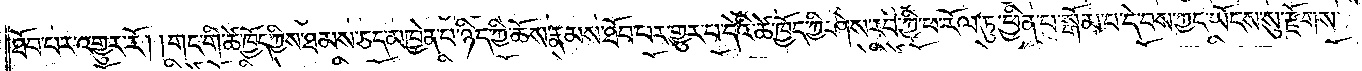ཐོབ་པར་འགྱུར་རོ། །གང་གི་ཚེ་ཁྱོད་ཀྱིས་ཐམས་ཅད་མཁྱེན་པ་ཉིད་ཀྱི་ཆོས་རྣམས་ཐོབ་པར་གྱུར་པ་དེའི་ཚེ་ཁྱོད་ཀྱི་ཤེས་རབ་ཀྱི་ཕ་རོལ་ཏུ་ཕྱིན་པ་སྒོམ་པ་དེ་བས་ཀྱང་ཡོངས་སུ་རྫོགས་
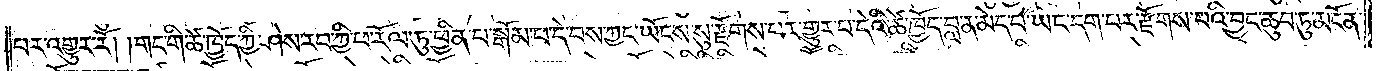པར་འགྱུར་རོ། །གང་གི་ཚེ་ཁྱོད་ཀྱི་ཤེས་རབ་ཀྱི་ཕ་རོལ་ཏུ་ཕྱིན་པ་སྒོམ་པ་དེ་བས་ཀྱང་ཡོངས་སུ་རྫོགས་པར་གྱུར་པ་དེའི་ཚེ་ཁྱོད་བླ་ན་མེད་པ་ཡང་དག་པར་རྫོགས་པའི་བྱང་ཆུབ་ཏུ་མངོན་
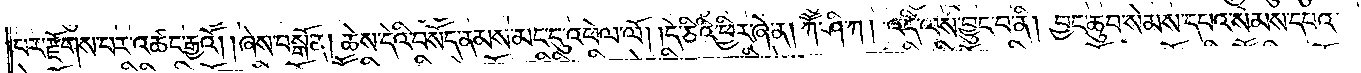པར་རྫོགས་པར་འཚང་རྒྱའོ། །ཞེས་བསྒོ་ན། ཆེས་དེའི་བསོད་ནམས་མང་དུ་འཕེལ་ལོ། །དེ་ཅིའི་ཕྱིར་ཞེ་ན། ཀཽ་ཤི་ཀ། འདི་ལས་བྱུང་བ་ནི། བྱང་ཆུབ་སེམས་དཔའ་སེམས་དཔའ་
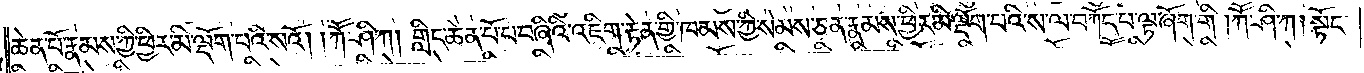ཆེན་པོ་རྣམས་ཀྱི་ཕྱིར་མི་ལྡོག་པའི་སའོ། །ཀཽ་ཤི་ཀ། གླིང་ཆེན་པོ་པ་བཞིའི་འཇིག་རྟེན་གྱི་ཁམས་ཀྱི་སེམས་ཅན་རྣམས་ཕྱིར་མི་ལྡོག་པའི་ས་ལ་བཀོད་པ་ལྟ་ཞོག་གི །ཀཽ་ཤི་ཀ། སྟོང་
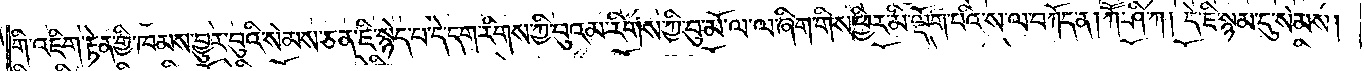གི་འཇིག་རྟེན་གྱི་ཁམས་བྱུར་བུའི་སེམས་ཅན་ཇི་སྙེད་པ་དེ་དག་རིགས་ཀྱི་བུའམ་རིགས་ཀྱི་བུ་མོ་ལ་ལ་ཞིག་གིས་ཕྱིར་མི་ལྡོག་པའི་ས་ལ་བཀོད་ན། ཀཽ་ཤི་ཀ། དེ་ཇི་སྙམ་དུ་སེམས།
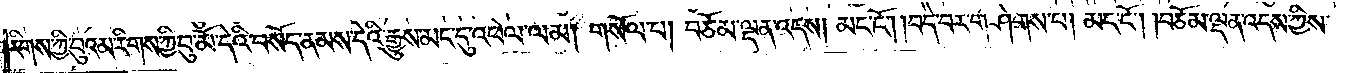རིགས་ཀྱི་བུའམ་རིགས་ཀྱི་བུ་མོ་དེའི་བསོད་ནམས་དེའི་རྒྱུས་མང་དུ་འཕེལ་ལམ། གསོལ་པ། བཅོམ་ལྡན་འདས། མང་ངོ༌། །བདེ་བར་གཤེགས་པ། མང་ངོ༌། །བཅོམ་ལྡན་འདས་ཀྱིས་
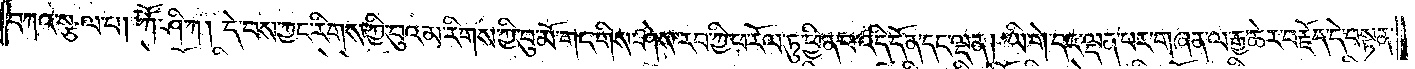བཀའ་སྩལ་པ། ཀཽ་ཤི་ཀ། དེ་བས་ཀྱང་རིགས་ཀྱི་བུའམ་རིགས་ཀྱི་བུ་མོ་གང་གིས་ཤེས་རབ་ཀྱི་ཕ་རོལ་ཏུ་ཕྱིན་པ་འདི་དོན་དང་ལྡན། ཡི་གེ་དང་ལྡན་པར་གཞན་ལ་རྒྱ་ཆེར་བརྗོད་དེ་བསྟན་
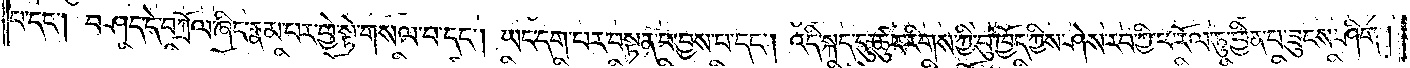པ་དང༌། བཤད་དེ་བཀྲོལ་ཞིང་རྣམ་པར་ཕྱེ་སྟེ་གསལ་བ་དང༌། ཡང་དག་པར་བསྟན་པ་བྱས་པ་དང༌། འདི་སྐད་དུ་ཚུར་རིགས་ཀྱི་བུ་ཁྱོད་ཀྱིས་ཤེས་རབ་ཀྱི་ཕ་རོལ་ཏུ་ཕྱིན་པ་ཟུངས་ཤིག །
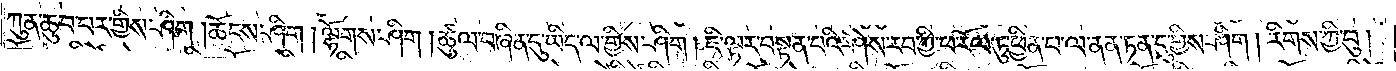ཀུན་ཆུབ་པར་གྱིས་ཤིག །ཆོངས་ཤིག། ལྷོགས་ཤིག །ཚུལ་བཞིན་དུ་ཡིད་ལ་གྱིས་ཤིག །ཇི་ལྟར་བསྟན་པའི་ཤེས་རབ་ཀྱི་ཕ་རོལ་ཏུ་ཕྱིན་པ་ལ་ནན་ཏན་དུ་གྱིས་ཤིག །རིགས་ཀྱི་བུ།
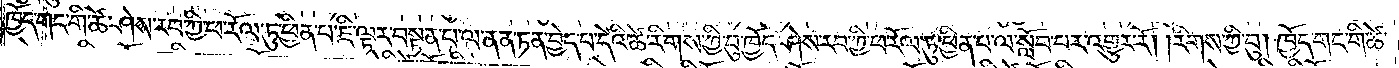ཁྱོད་གང་གི་ཚེ་ཤེས་རབ་ཀྱི་ཕ་རོལ་ཏུ་ཕྱིན་པ་ཇི་ལྟར་བསྟན་པ་ལ་ནན་ཏན་བྱེད་པ་དེའི་ཚེ་རིགས་ཀྱི་བུ་ཁྱོད་ཤེས་རབ་ཀྱི་ཕ་རོལ་ཏུ་ཕྱིན་པ་ལ་སློབ་པར་འགྱུར་རོ། །རིགས་ཀྱི་བུ། ཁྱོད་གང་གི་ཚེ་
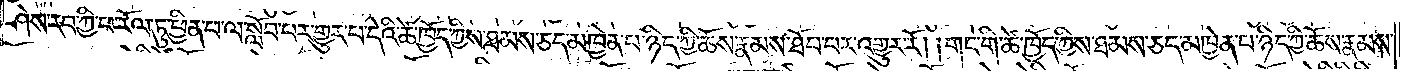ཤེས་རབ་ཀྱི་ཕ་རོལ་ཏུ་ཕྱིན་པ་ལ་སློབ་པར་གྱུར་པ་དེའི་ཚེ་ཁྱོད་ཀྱིས་ཐམས་ཅད་མཁྱེན་པ་ཉིད་ཀྱི་ཆོས་རྣམས་ཐོབ་པར་འགྱུར་རོ། །གང་གི་ཚེ་ཁྱོད་ཀྱིས་ཐམས་ཅད་མཁྱེན་པ་ཉིད་ཀྱི་ཆོས་རྣམས་
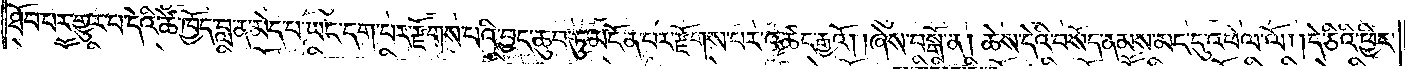ཐོབ་པར་གྱུར་པ་དེའི་ཚེ་ཁྱོད་བླ་ན་མེད་པ་ཡང་དག་པར་རྫོགས་པའི་བྱང་ཆུབ་ཏུ་མངོན་པར་རྫོགས་པར་འཚང་རྒྱའོ། །ཞེས་བསྒོ་ན། ཆེས་དེའི་བསོད་ནམས་མང་དུ་འཕེལ་ལོ། །དེ་ཅིའི་ཕྱིར་
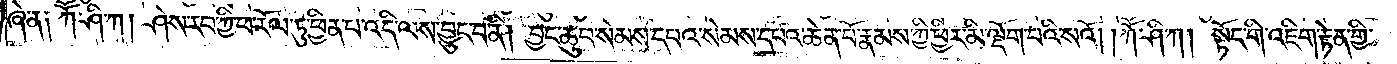ཞེ་ན༑ ཀཽ་ཤི་ཀ། ཤེས་རབ་ཀྱི་ཕ་རོལ་ཏུ་ཕྱིན་པ་འདི་ལས་བྱུང་བ་ནི། བྱང་ཆུབ་སེམས་དཔའ་སེམས་དཔའ་ཆེན་པོ་རྣམས་ཀྱི་ཕྱིར་མི་ལྡོག་པའི་སའོ། །ཀཽ་ཤི་ཀ། སྟོང་གི་འཇིག་རྟེན་གྱི་
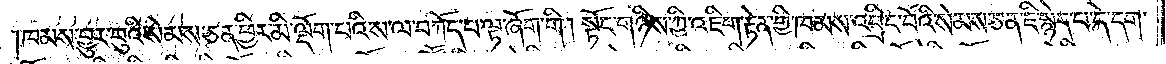ཁམས་བྱུར་བུའི་སེམས་ཅན་ཕྱིར་མི་ལྡོག་པའི་ས་ལ་བཀོད་པ་ལྟ་ཞོག་གི །སྟོང་གཉིས་ཀྱི་འཇིག་རྟེན་གྱི་ཁམས་འབྲིང་པོའི་སེམས་ཅན་ཇི་སྙེད་པ་དེ་དག་
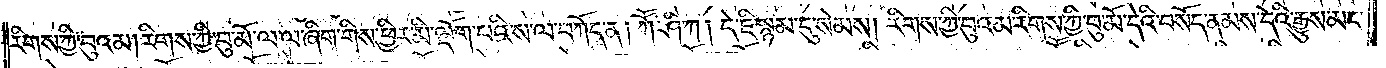རིགས་ཀྱི་བུའམ། རིགས་ཀྱི་བུ་མོ་ལ་ལ་ཞིག་གིས་ཕྱིར་མི་ལྡོག་པའི་ས་ལ་བཀོད་ན། ཀཽ་ཤི་ཀ། དེ་ཇི་སྙམ་དུ་སེམས། རིགས་ཀྱི་བུའམ་རིགས་ཀྱི་བུ་མོ་དེའི་བསོད་ནམས་དེའི་རྒྱུས་མང་
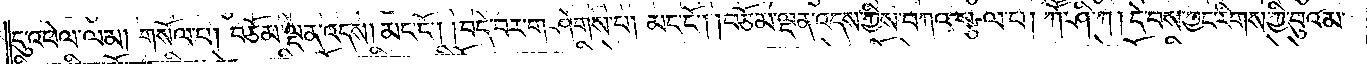དུ་འཕེལ་ལམ། གསོལ་པ། བཅོམ་ལྡན་འདས། མང་ངོ༌། །བདེ་བར་གཤེགས་པ། མང་ངོ༌། །བཅོམ་ལྡན་འདས་ཀྱིས་བཀའ་སྩལ་པ། ཀཽ་ཤི་ཀ། དེ་བས་ཀྱང་རིགས་ཀྱི་བུའམ་
